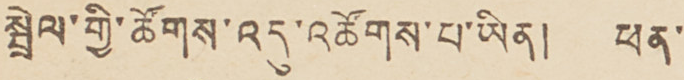སྦྲེལ་གྱི་ཚོགས་འདུ་འཚོགས་པ་ཡིན། ཕན་
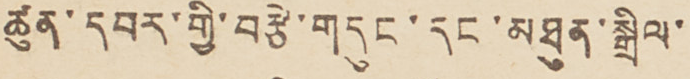ཚུན་དབར་གྱི་བརྩེ་གདུང་དང་མཐུན་སྒྲིལ་
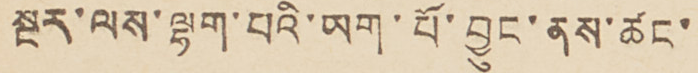སྔར་ལས་ལྷག་པའི་ཡག་པོ་བྱུང་ནས་ཚང་
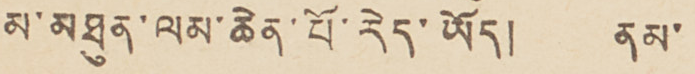མ་མཐུན་ལམ་ཆེན་པོ་རེད་ཡོད། ནམ་
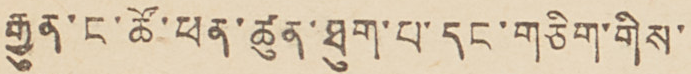རྒྱུན་ང་ཚོ་ཕན་ཚུན་ཐུག་པ་དང་གཅིག་གིས་
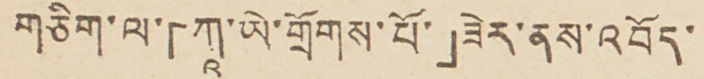གཅིག་ལ་「ཀཱ་ཡེ་གྲོགས་པོ་」ཟེར་ནས་འབོད་
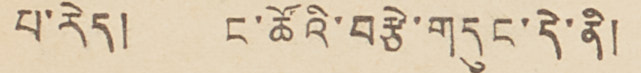པ་རེད། ང་ཚོའི་བརྩེ་གདུང་དེ་ནི།
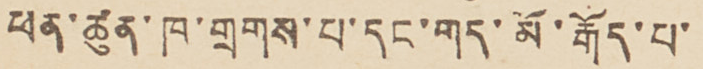ཕན་ཚུན་ཁ་གྲགས་པ་དང་གད་མོ་རྒོད་པ་
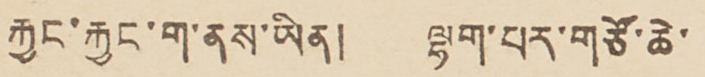རྐྱང་རྐྱང་ག་ནས་ཡིན། ལྷག་པར་གཙོ་ཆེ་
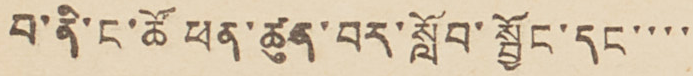བ་ནི་ང་ཚོ ཕན་ཚུན་བར་སློབ་སྦྱོང་དང་་་་
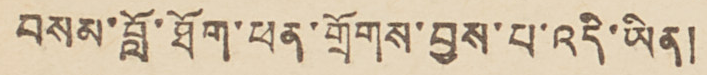བསམ་བློ་ཐོག་ཕན་གྲོགས་བྱས་པ་འདི་ཡིན།
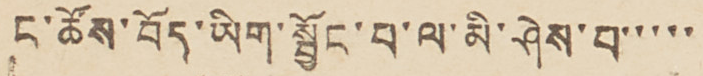ང་ཚོས་བོད་ཡིག་སྦྱོང་བ་ལ་མི་ཤེས་པ་་་་་
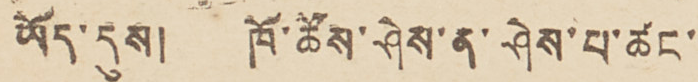ཡོད་དུས། ཁོ་ཚོས་ཤེས་ན་ཤེས་པ་ཚང་
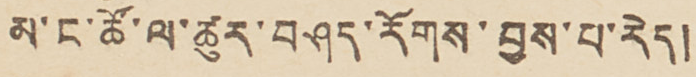མ་ང་ཚོ་ལ་ཚུར་བཤད་རོགས་བྱས་པ་རེད།
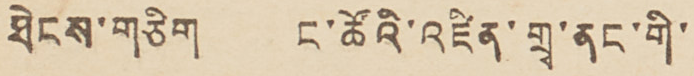ཐེངས་གཅིག ང་ཚོའི་འཛིན་གྲྭ་ནང་གི་
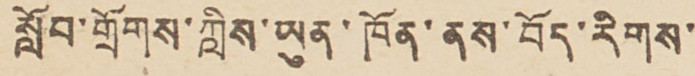སློབ་གྲོགས་ཀླིས་ཡུན་ཁོན་ནས་བོད་རིགས་
